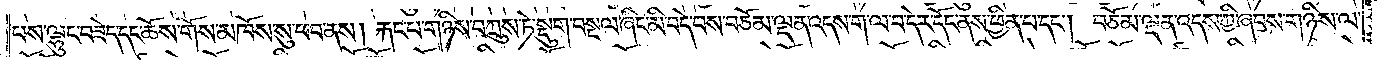པས་ལྷུང་བཟེད་དང་ཆོས་གོས་མཁོས་སུ་ཕབ་ནས། རྐང་པ་གཉིས་བཀྲུས་ཏེ་སྡུག་བསྔལ་ཞིང་མི་བདེ་བས་བཅོམ་ལྡན་འདས་ག་ལ་བ་དེར་དོང་ནས་ཕྱིན་པ་དང༌། བཅོམ་ལྡན་འདས་ཀྱི་ཞབས་གཉིས་ལ་
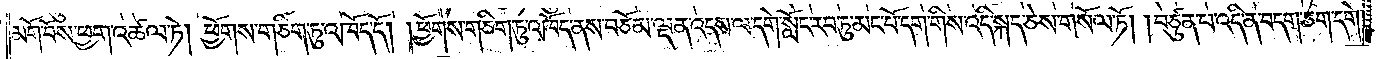མགོ་བོས་ཕྱག་འཚལ་ཏེ། ཕྱོགས་གཅིག་ཏུ་འཁོད་དོ། །ཕྱོགས་གཅིག་ཏུ་འཁོད་ནས་བཅོམ་ལྡན་འདས་ལ་དགེ་སློང་རབ་ཏུ་མང་པོ་དག་གིས་འདི་སྐད་ཅེས་གསོལ་ཏོ། །བཙུན་པ་འདི་ན་བདག་ཅག་དགེ་
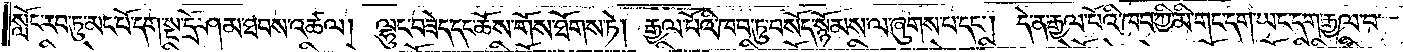སློང་རབ་ཏུ་མང་པོ་དག་སྔ་དྲོ་ཤམ་ཐབས་འཚལ། ལྷུང་བཟེད་དང་ཆོས་གོས་ཐོགས་ཏེ། རྒྱལ་པོའི་ཁབ་ཏུ་བསོད་སྙོམས་ལ་ཞུགས་པ་དང༌། དེ་ན་རྒྱལ་པོའི་ཁབ་ཀྱི་མི་གང་དག་ཡང་དག་རྒྱལ་བ་
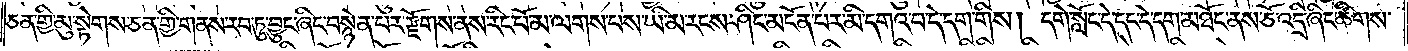ཅན་གྱི་མུ་སྟེགས་ཅན་གྱི་གནས་རབ་ཏུ་བྱུང་ཞིང་བསྙེན་པར་རྫོགས་ནས་རིང་པོ་མ་ལགས་པས་ཡི་མ་རངས་ཤིང་མངོན་པར་མི་དགའ་བ་དེ་དག་གིས། དགེ་སློང་དེ་དང་དེ་དག་མཐོང་ནས་ཅོ་འདྲི་ཞིང་ཚིགས་
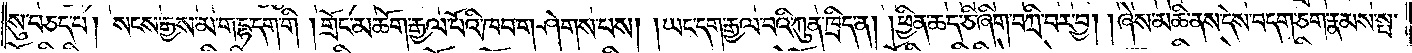སུ་བཅད་པ། སངས་རྒྱས་མ་ག་དྷ་དག་གི །གྲོང་མཆོག་རྒྱལ་པོའི་ཁབ་གཤེགས་པས། །ཡང་དག་རྒྱལ་བའི་ཀུན་ཁྲིད་ན། །ཕྱིན་ཆད་ཅི་ཞིག་བཀྲི་བར་བྱ། །ཞེས་མཆི་ནས་དེས་བདག་ཅག་རྣམས་སྤ་
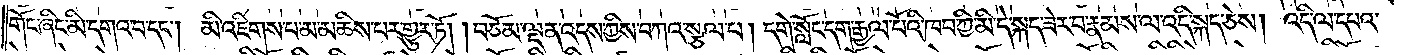གོང་ཞིང་མི་དགའ་བ་དང༌། མི་འཇིགས་པ་མ་མཆིས་པར་གྱུར་ཏོ། །བཅོམ་ལྡན་འདས་ཀྱིས་བཀའ་སྩལ་པ། དགེ་སློང་དག་རྒྱལ་པོའི་ཁབ་ཀྱི་མི་དེ་སྐད་ཟེར་བ་རྣམས་ལ་འདི་སྐད་ཅེས། འདི་ལ་དཔའ་
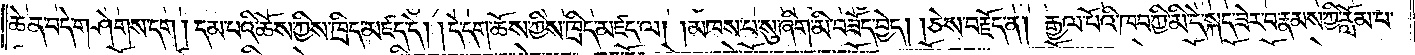ཆེན་བདེ་གཤེགས་དག། དམ་པའི་ཆོས་ཀྱིས་ཁྲིད་མཛད་དེ། །དེ་དག་ཆོས་ཀྱིས་ཁྲིད་མཛད་ལ། །མཁས་པ་སུ་ཞིག་མི་བཟོད་བྱེད། །ཅེས་བརྗོད་ན། རྒྱལ་པོའི་ཁབ་ཀྱི་མི་དེ་སྐད་ཟེར་བ་རྣམས་ཀྱི་རློམ་པ་
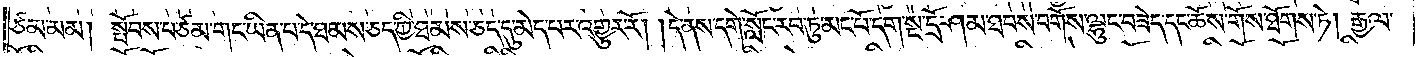ཙམ་མམ། སྤོབས་པ་ཙམ་གང་ཡིན་པ་དེ་ཐམས་ཅད་ཀྱི་ཐམས་ཅད་དུ་མེད་པར་འགྱུར་རོ། །དེ་ནས་དགེ་སློང་རབ་ཏུ་མང་པོ་དག་སྔ་དྲོ་ཤམ་ཐབས་བགོས་ལྷུང་བཟེད་དང་ཆོས་གོས་ཐོགས་ཏེ། རྒྱལ་
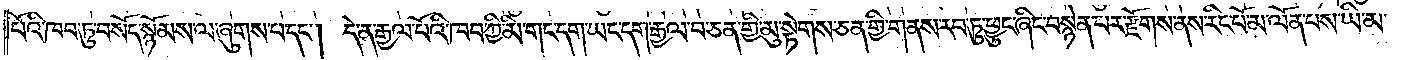པོའི་ཁབ་ཏུ་བསོད་སྙོམས་ལ་ཞུགས་པ་དང༌། དེ་ན་རྒྱལ་པོའི་ཁབ་ཀྱི་མི་གང་དག་ཡང་དག་རྒྱལ་བ་ཅན་གྱི་མུ་སྟེགས་ཅན་གྱི་གནས་རབ་ཏུ་ཕྱུང་ཞིང་བསྙེན་པར་རྫོགས་ནས་རིང་པོ་མ་ལོན་པས་ཡི་མ་
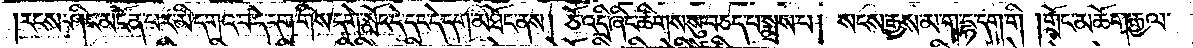རངས་ཤིང་མངོན་པར་མི་དགའ་བ་དེ་དག་གིས་དགེ་སློང་དེ་དང་དེ་དག་མཐོང་ནས། ཅོ་འདྲི་ཞིང་ཚིགས་སུ་བཅད་པ་སྨྲས་པ། སངས་རྒྱས་མ་ག་དྷ་དག་གི ། གྲོང་མཆོག་རྒྱལ་
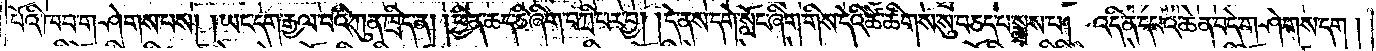པོའི་ཁབ་གཤེགས་པས། །ཡང་དག་རྒྱལ་བའི་ཀུན་ཁྲིད་ན། །ཕྱིན་ཆད་ཅི་ཞིག་བཀྲི་བར་བྱ། །དེ་ནས་དགེ་སློང་ཞིག་གིས་དེའི་ཚེ་ཚིགས་སུ་བཅད་པ་སྨྲས་པ། འདི་ན་དཔའ་ཆེན་བདེ་གཤེགས་དག།
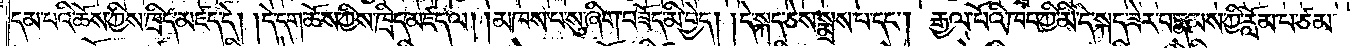དམ་པའི་ཆོས་ཀྱིས་ཁྲིད་མཛད་དེ། །དེ་དག་ཆོས་ཀྱིས་ཁྲིད་མཛད་ལ། །མཁས་པ་སུ་ཞིག་བཟོད་མི་བྱེད། །དེ་སྐད་ཅེས་སྨྲས་པ་དང༌། རྒྱལ་པོའི་ཁབ་ཀྱི་མི་དེ་སྐད་ཟེར་བ་རྣམས་ཀྱི་རློམ་པ་ཙམ་
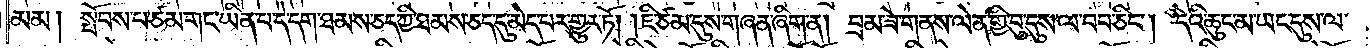མམ། སྤོབས་པ་ཙམ་གང་ཡིན་པ་དེ་དག་ཐམས་ཅད་ཀྱི་ཐམས་ཅད་དུ་མེད་པར་གྱུར་ཏོ། །ཇི་ཙམ་དུས་གཞན་ཞིག་ན། བྲམ་ཟེ་གནས་ལེན་གྱི་བུ་དུས་ལ་བབ་ཅིང༌། དེའི་ཆུང་མ་ཡང་དུས་ལ་
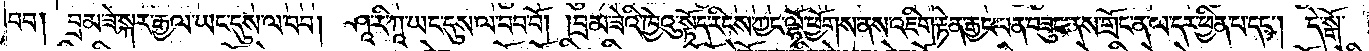བབ། བྲམ་ཟེ་སྐར་རྒྱལ་ཡང་དུས་ལ་བབ། ཤཱ་རི་ཀཱ་ཡང་དུས་ལ་བབ་བོ། །བྲམ་ཟེའི་ཁྱེའུ་སྟོད་རིངས་ཀྱང་ལྷོ་ཕྱོགས་ནས་འཇིག་རྟེན་རྒྱང་པན་བཟུང་ནས་གྲོང་ན་ལ་དར་ཕྱིན་པ་དང༌། དེ་སྒོ་
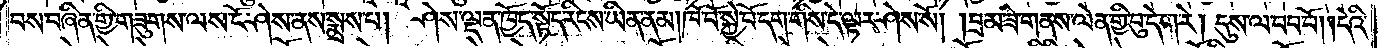བས་བཞིན་གྱི་གཟུགས་ལས་ངོ་ཤེས་ནས་སྨྲས་པ། ཤེས་ལྡན་ཁྱོད་སྟོད་རིངས་ཡིན་ནམ།ཁོ་བོ་སྐྱེ་བོ་དག་གིས་དེ་ལྟར་ཤེས་སོ། །བྲམ་ཟེ་གནས་ལེན་གྱི་བུ་དེ་ག་རེ། དུས་ལ་བབ་བོ། །དེའི་
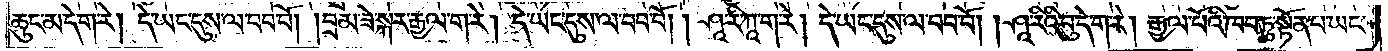ཆུང་མ་དེ་ག་རེ། དེ་ཡང་དུས་ལ་བབ་བོ། །བྲམ་ཟེ་སྐར་རྒྱལ་ག་རེ། དེ་ཡང་དུས་ལ་བབ་བོ། །ཤཱ་རི་ཀཱ་ག་རེ། དེ་ཡང་དུས་ལ་བབ་བོ། །ཤཱ་རིའི་བུ་དེ་ག་རེ། རྒྱལ་པོའི་ཁབ་ཏུ་སྟོན་པ་ཡང་
